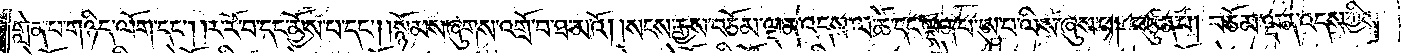གླེན་པ་གཉིད་ལོག་དང༌། །ར་རོ་བ་དང་མྱོས་པ་དང༌། །སྙོམས་ཞུགས་འགྲོ་བ་ཐ་མའོ། །སངས་རྒྱས་བཅོམ་ལྡན་འདས་ལ་ཚེ་དང་ལྡན་པ་ཨུ་པ་ལིས་ཞུས་པ། བཙུན་པ། བཅོམ་ལྡན་འདས་ཀྱིས་
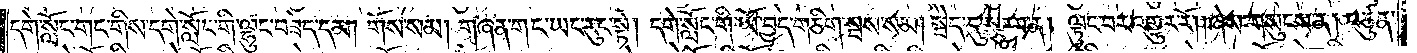དགེ་སློང་གང་གིས་དགེ་སློང་གི་ལྷུང་བཟེད་དམ། གོས་སམ། གཞན་གང་ཡང་རུང་སྟེ། དགེ་སློང་གི་ཡོ་བྱད་གཅིག་སྦས་སམ། སྦེད་དུ་སྩལ་ན། ལྟུང་བར་འགྱུར་རོ། །ཞེས་གསུངས་ན། བཙུན་
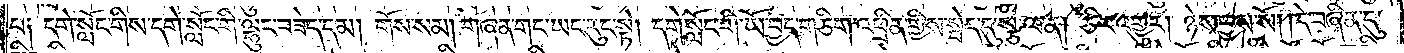པ༑ དགེ་སློང་གིས་དགེ་སློང་གི་ལྷུང་བཟེད་དམ། གོས་སམ། གཞན་གང་ཡང་རུང་སྟེ། དགེ་སློང་གི་ཡོ་བྱད་གཅིག་འཕྲིན་གྱིས་སྦེད་དུ་སྩལ་ན། ཅིར་འགྱུར། ཉེས་བྱས་སོ། །དེ་བཞིན་དུ་
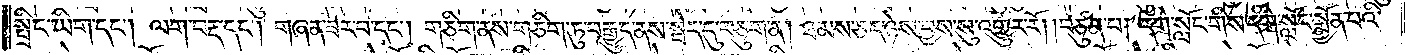སྤྲིང་ཡིག་དང༌། ལག་བརྡ་དང༌། གཞན་ཟེར་བ་དང༌། གཅིག་ནས་གཅིག་ཏུ་བརྒྱུད་ནས་སྦེད་དུ་བཅུག་ན། ཐམས་ཅད་ཉེས་བྱས་སུ་འགྱུར་རོ། །བཙུན་པ། དགེ་སློང་གིས་དགེ་སློང་སྨྱོན་པའི་
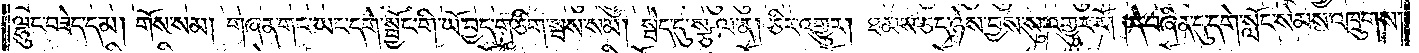ལྷུང་བཟེད་དམ། གོས་སམ། གཞན་གང་ཡང་དགེ་སྦྱོང་གི་ཡོ་བྱད་གཅིག་སྦས་སམ། སྦེད་དུ་སྩལ་ན། ཅིར་འགྱུར། ཐམས་ཅད་ཉེས་བྱས་སུ་འགྱུར་རོ། །དེ་བཞིན་དུ་དགེ་སློང་སེམས་འཁྲུགས་
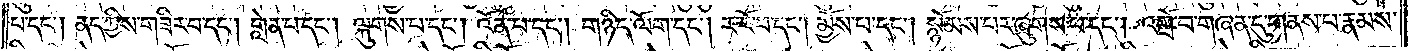པ་དང༌། ནད་ཀྱིས་གཟིར་བ་དང༌། གླེན་པ་དང༌། ལྐུགས་པ་དང༌། འོན་པ་དང༌། གཉིད་ལོག་དང༌། ར་རོ་བ་དང༌། མྱོས་པ་དང༌། སྙོམས་པར་ཞུགས་པ་དང༌། འགྲོ་བ་གཞན་དུ་གནས་པ་རྣམས་
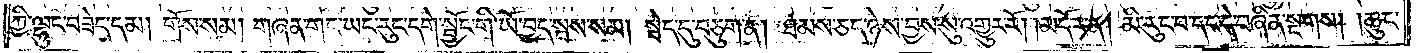ཀྱི་ལྷུང་བཟེད་དམ། གོས་སམ། གཞན་གང་ཡང་རུང་དགེ་སྦྱོང་གི་ཡོ་བྱད་སྦས་སམ། སྦེད་དུ་བཅུག་ན། ཐམས་ཅད་ཉེས་བྱས་སུ་འགྱུར་རོ།    །མདོར་ན། མི་རུང་བ་དང་དེ་བཞིན་སྔགས། །ཆུང་
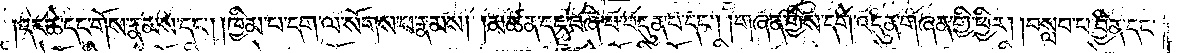།དང་ཆེ་དང་གོས་རྣམས་དང༌། །ཁྱིམ་པ་དག་ལ་སོགས་པ་རྣམས། །མཚན་དང་བཞི་པ་བདུན་པ་དང༌། །གཞན་གྱིས་དགེ་འདུན་གཞན་གྱི་ཕྱིར། །བསླབ་པ་བྱིན་དང་
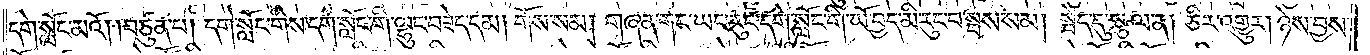དགེ་སློང་མའོ། །བཙུན་པ། དགེ་སློང་གིས་དགེ་སློང་གི་ལྷུང་བཟེད་དམ། གོས་སམ། གཞན་གང་ཡང་རུང་དགེ་སློང་གི་ཡོ་བྱད་མི་རུང་བ་སྦས་སམ། སྦེད་དུ་སྩལ་ན། ཅིར་འགྱུར། ཉེས་བྱས་
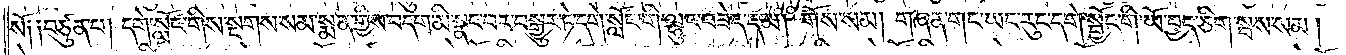སོ༑ ༑བཙུན་པ། དགེ་སློང་གིས་སྔགས་སམ་སྨན་གྱིས་བདག་མི་སྣང་བར་བསྒྱུར་ཏེ་དགེ་སློང་གི་ལྷུང་བཟེད་དམ།  གོས་སམ། གཞན་གང་ཡང་རུང་དགེ་སྦྱོང་གི་ཡོ་བྱད་ཅིག་སྦས་སམ།
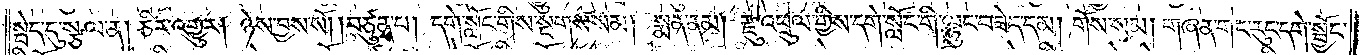སྦེད་དུ་སྩལ་ན། ཅིར་འགྱུར། ཉེས་བྱས་སོ། །བཙུན་པ། དགེ་སློང་གིས་སྔགས་སམ། སྨན་ནམ། རྫུ་འཕྲུལ་གྱིས་དགེ་སློང་གི་ལྷུང་བཟེད་དམ། གོས་སམ། གཞན་གང་རུང་དགེ་སྦྱོང་
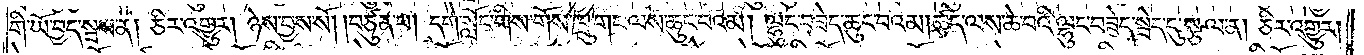གི་ཡོ་བྱད་སྦས་ན། ཅིར་འགྱུར། ཉེས་བྱས་སོ། །བཙུན་པ། དགེ་སློང་གིས་གོས་ཁྲུ་གང་ལས་ཆུང་བའམ། ལྷུང་བཟེད་ཆུང་བའམ། ཚད་ལས་ཆེ་བའི་ལྷུང་བཟེད་སྦེད་དུ་སྩལ་ན། ཅིར་འགྱུར།
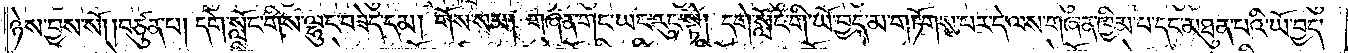ཉེས་བྱས་སོ། །བཙུན་པ། དགེ་སློང་གིས་ལྷུང་བཟེད་དམ། གོས་སམ། གཞན་གང་ཡང་རུང་སྟེ། དགེ་སློང་གི་ཡོ་བྱད་མ་གཏོགས་པར་དེ་ལས་གཞན་ཁྱིམ་པ་དང་མཐུན་པའི་ཡོ་བྱད་
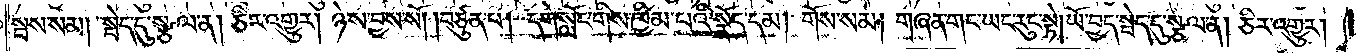སྦས་སམ། སྦེད་དུ་སྩལ་ན། ཅིར་འགྱུར། ཉེས་བྱས་སོ། །བཙུན་པ། དགེ་སློང་གིས་ཁྱིམ་པའི་སྣོད་དམ། གོས་སམ། གཞན་གང་ཡང་རུང་སྟེ། ཡོ་བྱད་སྦེད་དུ་སྩལ་ན། ཅིར་འགྱུར།
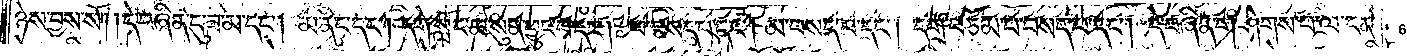ཉེས་བྱས་སོ། །དེ་བཞིན་དུ་ཟ་མ་དང༌། མ་ནིང་དང༌། དགེ་སློང་མ་སུན་ཕྱུང་བ་དང༌། ཕ་བསད་པ་དང༌། མ་བསད་པ་དང༌། དགྲ་བཅོམ་པ་བསད་པ་དང༌། དེ་བཞིན་གཤེགས་པ་ལ་ངན་
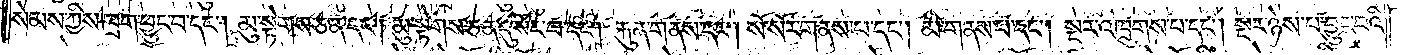སེམས་ཀྱིས་ཁྲག་ཕྱུང་བ་དང༌། མུ་སྟེགས་ཅན་དང༌། མུ་སྟེགས་ཅན་དུ་སོང་བ་དང༌། རྐུན་གནས་དང༌། སོ་སོར་གནས་པ་དང༌། མི་གནས་པ་དང༌། སྔར་འཁྲུགས་པ་དང༌། སྔར་ཉེས་པ་བྱུང་བའི་
